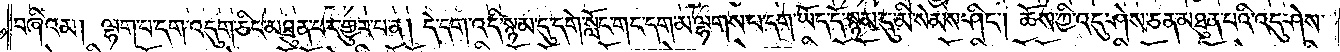བཞིའམ། ལྷག་པ་དག་འདུག་ཅིང་མཐུན་པར་གྱུར་པ་ན། དེ་དག་འདི་སྙམ་དུ་དགེ་སློང་གང་དག་མ་ལྷགས་པ་དག་ཡོད་དོ་སྙམ་དུ་མི་སེམས་ཤིང༌། ཆོས་ཀྱི་འདུ་ཤེས་ཅན་མཐུན་པའི་འདུ་ཤེས་
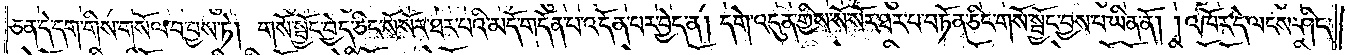ཅན་དེ་དག་གིས་གསོལ་བ་བྱས་ཏེ། གསོ་སྦྱོང་བྱེད་ཅིང་སོ་སོར་ཐར་པའི་མདོ་གདོན་པ་འདོན་པར་བྱེད་ན། དགེ་འདུན་གྱིས་སོ་སོར་ཐར་པ་བཏོན་ཅིང་གསོ་སྦྱོང་བྱས་པ་ཡིན་ནོ། །འཁོར་དེ་ལངས་ཤིང་
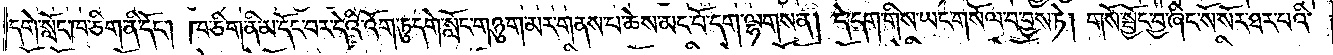དགེ་སློང་ཁ་ཅིག་ནི་དོང༌། ཁ་ཅིག་ནི་མ་དོང་བར་དེའི་འོག་ཏུ་དགེ་སློང་གཉུག་མར་གནས་པ་ཆེས་མང་པོ་དག་ལྷགས་ན། དེ་དག་གིས་ཡང་གསོལ་བ་བྱས་ཏེ། གསོ་སྦྱོང་བྱ་ཞིང་སོ་སོར་ཐར་པའི་
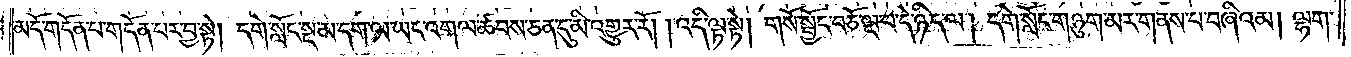མདོ་གདོན་པ་གདོན་པར་བྱ་སྟེ། དགེ་སློང་སྔ་མ་དག་ལ་ཡང་འགལ་ཚབས་ཅན་དུ་མི་འགྱུར་རོ། །འདི་ལྟ་སྟེ། གསོ་སྦྱོང་བཅོ་ལྔ་པ་དེ་ཉིད་ལ། དགེ་སློང་གཉུག་མར་གནས་པ་བཞིའམ། ལྷག་
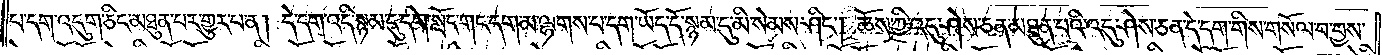པ་དག་འདུག་ཅིང་མཐུན་པར་གྱུར་པ་ན། དེ་དག་འདི་སྙམ་དུ་དགེ་སློང་གང་དག་མ་ལྷགས་པ་དག་ཡོད་དོ་སྙམ་དུ་མི་སེམས་ཤིང༌། ཆོས་ཀྱི་འདུ་ཤེས་ཅན་མཐུན་པའི་འདུ་ཤེས་ཅན་དེ་དག་གིས་གསོལ་བ་བྱས་
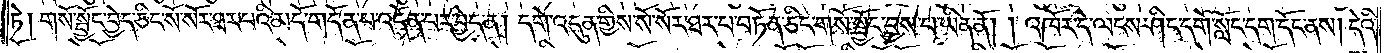ཏེ། གསོ་སྦྱོང་བྱེད་ཅིང་སོ་སོར་ཐར་པའི་མདོ་གདོན་པ་འདོན་པར་བྱེད་ན། དགེ་འདུན་གྱིས་སོ་སོར་ཐར་པ་བཏོན་ཅིང་གསོ་སྦྱོང་བྱས་པ་ཡིན་ནོ། །འཁོར་དེ་ལངས་ཤིང་དགེ་སློང་དག་དོང་ནས། དེའི་
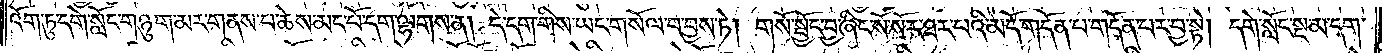འོག་ཏུ་དགེ་སློང་གཉུག་མར་གནས་པ་ཆེས་མང་པོ་དག་ལྷགས་ན། དེ་དག་གིས་ཡང་གསོལ་བ་བྱས་ཏེ། གསོ་སྦྱོང་བྱ་ཞིང་སོ་སོར་ཐར་པའི་མདོ་གདོན་པ་གདོན་པར་བྱ་སྟེ། དགེ་སློང་སྔ་མ་དག་
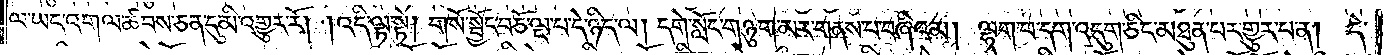ལ་ཡང་འགལ་ཚབས་ཅན་དུ་མི་འགྱུར་རོ། །འདི་ལྟ་སྟེ། གསོ་སྦྱོང་བཅོ་ལྔ་པ་དེ་ཉིད་ལ། དགེ་སློང་གཉུག་མར་གནས་པ་བཞིའམ། ལྷག་པ་དག་འདུག་ཅིང་མཐུན་པར་གྱུར་པ་ན། དེ་
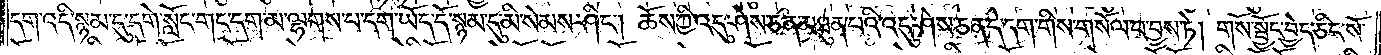དག་འདི་སྙམ་དུ་དགེ་སློང་གང་དག་མ་ལྷགས་པ་དག་ཡོད་དོ་སྙམ་དུ་མི་སེམས་ཤིང༌། ཆོས་ཀྱི་འདུ་ཤེས་ཅན་མཐུན་པའི་འདུ་ཤེས་ཅན་དེ་དག་གིས་གསོལ་བ་བྱས་ཏེ། གསོ་སྦྱོང་བྱེད་ཅིང་སོ་
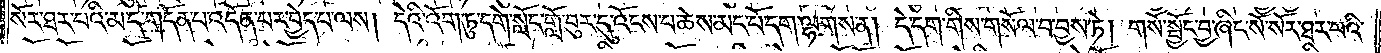སོར་ཐར་པའི་མདོ་གདོན་པ་འདོན་པར་བྱེད་པ་ལས། དེའི་འོག་ཏུ་དགེ་སློང་གློ་བུར་དུ་འོངས་པ་ཆེས་མང་པོ་དག་ལྷགས་ན། དེ་དག་གིས་གསོལ་བ་བྱས་ཏེ། གསོ་སྦྱོང་བྱ་ཞིང་སོ་སོར་ཐར་པའི་
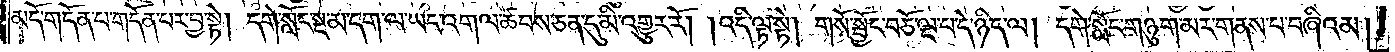མདོ་གདོན་པ་གདོན་པར་བྱ་སྟེ། དགེ་སློང་སྔ་མ་དག་ལ་ཡང་འགལ་ཚབས་ཅན་དུ་མི་འགྱུར་རོ། །འདི་ལྟ་སྟེ། གསོ་སྦྱོང་བཅོ་ལྔ་པ་དེ་ཉིད་ལ། དགེ་སློང་གཉུག་མར་གནས་པ་བཞིའམ།
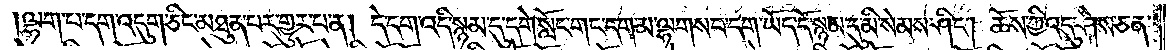ལྷག་པ་དག་འདུག་ཅིང་མཐུན་པར་གྱུར་པ་ན། དེ་དག་འདི་སྙམ་དུ་དགེ་སློང་གང་དག་མ་ལྷགས་པ་དག་ཡོད་དོ་སྙམ་དུ་མི་སེམས་ཤིང༌། ཆོས་ཀྱི་འདུ་ཤེས་ཅན་
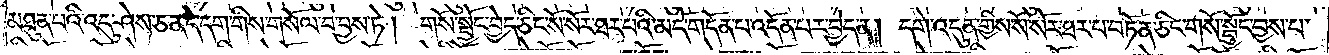མཐུན་པའི་འདུ་ཤེས་ཅན་དེ་དག་གིས་གསོལ་བ་བྱས་ཏེ། གསོ་སྦྱོང་བྱེད་ཅིང་སོ་སོར་ཐར་པའི་མདོ་གདོན་པ་འདོན་པར་བྱེད་ན། དགེ་འདུན་གྱིས་སོ་སོར་ཐར་པ་བཏོན་ཅིང་གསོ་སྦྱོང་བྱས་པ་
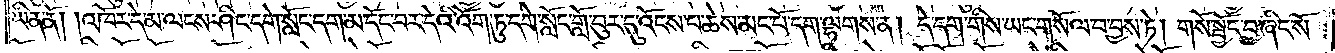ཡིན་ནོ། །འཁོར་དེ་མ་ལངས་ཤིང་དགེ་སློང་དག་མ་དོང་བར་དེའི་འོག་ཏུ་དགེ་སློང་གློ་བུར་དུ་འོངས་པ་ཆེས་མང་པོ་དག་ལྷགས་ན། དེ་དག་གིས་ཡང་གསོལ་བ་བྱས་ཏེ། གསོ་སྦྱོང་བྱ་ཞིང་སོ་
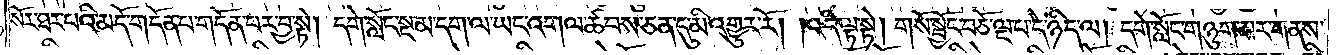སོར་ཐར་པའི་མདོ་གདོན་པ་གདོན་པར་བྱ་སྟེ། དགེ་སློང་སྔ་མ་དག་ལ་ཡང་འགལ་ཚབས་ཅན་དུ་མི་འགྱུར་རོ། །འདི་ལྟ་སྟེ། གསོ་སྦྱོང་བཅོ་ལྔ་པ་དེ་ཉིད་ལ། དགེ་སློང་གཉུག་མར་གནས་
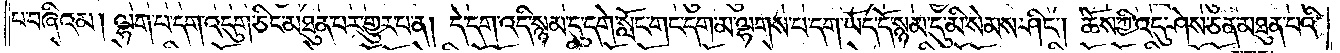པ་བཞིའམ། ལྷག་པ་དག་འདུག་ཅིང་མཐུན་པར་གྱུར་པ་ན། དེ་དག་འདི་སྙམ་དུ་དགེ་སློང་གང་དག་མ་ལྷགས་པ་དག་ཡོད་དོ་སྙམ་དུ་མི་སེམས་ཤིང༌། ཆོས་ཀྱི་འདུ་ཤེས་ཅན་མཐུན་པའི་
